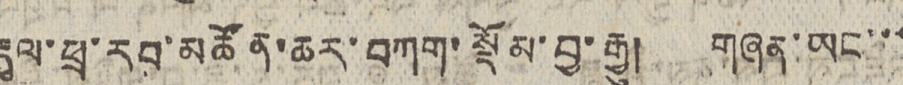རྡུལ་ཕྲ་རབ་མཚོན་ཆར་བཀག་སྡོམ་བྱ་རྒྱུ། གཞན་ཡང་་་
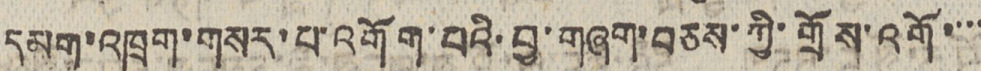དམག་འཁྲུག་གསར་པ་འགོག་པའི་བྱ་གཞག་བཅས་ཀྱི་གྲོས་འགོ་་་་
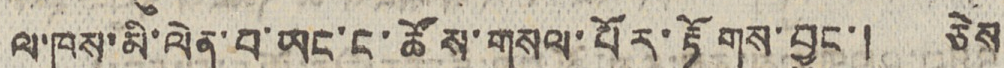ལ་ཁས་མི་ལེན་པ་ཡང་ང་ཚོས་གསལ་པོར་རྟོགས་བྱུང་། ཅེས
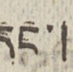དང་།
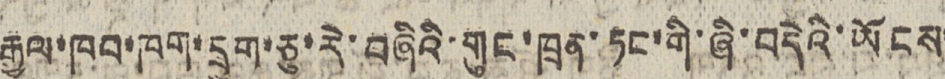རྒྱལ་ཁབ་ཁག་དྲུག་ཅུ་རེ་བཞིའི་གུང་ཁྲན་ཏང་གི་ཞི་བདེའི་ཡོངས་
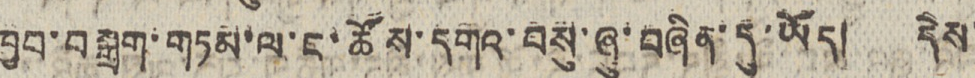ཁྱབ་བསྒྲག་གཏམ་ལ་ང་ཚོས་དགའ་བསུ་ཞུ་བཞིན་དུ་ཡོད། དེས་
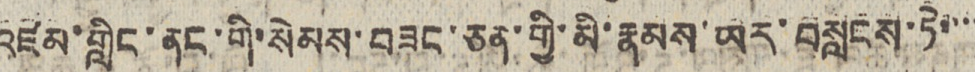འཛམ་གླིང་ནང་གི་སེམས་བཟང་ཅན་གྱི་མི་རྣམས་ཡར་བསླངས་ཏེ་་་་
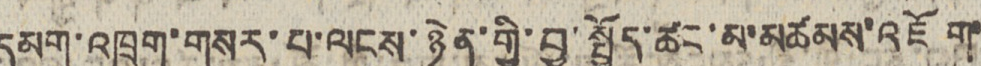དམག་འཁྲུག་གསར་པ་ལངས་ཉེན་གྱི་བྱ་སྤྱོད་ཚང་མ་མཚམས་འཇོག་
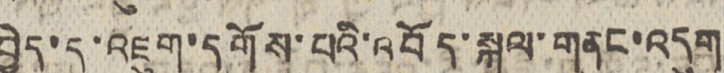བྱེད་དུ་འཇུག་དགོས་པའི་འབོད་སྐུལ་གནང་འདུག
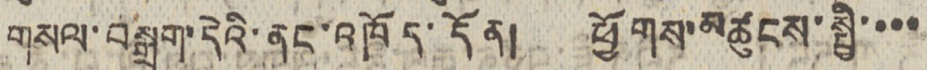གསལ་བསྒྲག་དེའི་ནང་འཁོད་དོན། ཕྱོགས་མཚུངས་སྤྱི་་་་
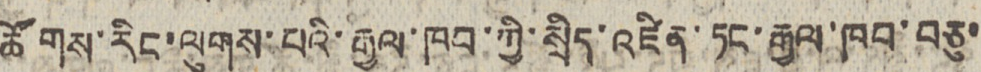ཚགོས་རིང་ལུགས་པའི་རྒྱལ་ཁབ་ཀྱི་སྲིད་འཛིན་ཏང་རྒྱལ་ཁབ་བཅུ་
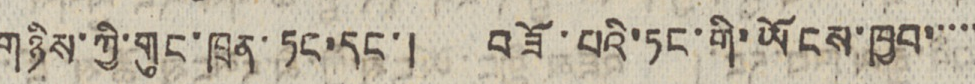གཉིས་ཀྱི་གུང་ཁྲན་ཏང་དང་། བཟོ་པའི་ཏང་གི་ཡོངས་ཁྱབ་་་་་
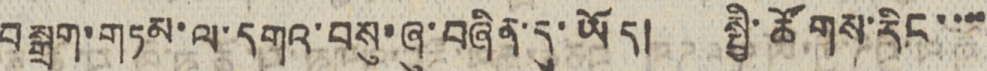བསྒྲག་གཏམ་ལ་དགའ་བསུ་ཞུ་བཞིན་དུ་ཡོད། སྤྱི་ཚོགས་རིང་་་་
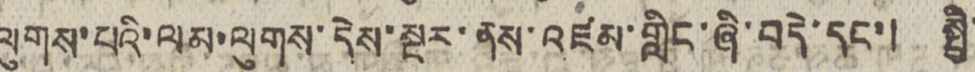ལུགས་པའི་ལམ་ལུགས་དེས་སྔར་ནས་འཛམ་གླིང་ཞི་བདེ་དང་། སྤྱི་
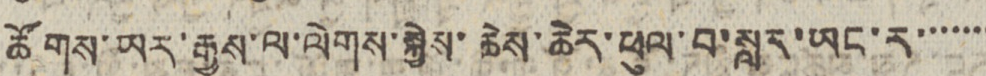ཚོགས་ཡར་རྒྱས་ལ་ལེགས་སྐྱེས་ཆེས་ཆེར་ཕུལ་བ་སླར་ཡང་ར་་་་་་་
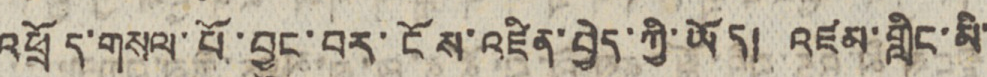འཕྲོད་གསལ་པོ་བྱུང་བར་ངོས་འཛིན་བྱེད་ཀྱི་ཡོད། འཛམ་གླིང་མི་
